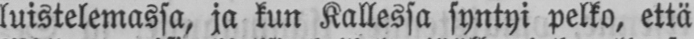luistelemassa, ja kun Kallessa syntyi pelko, että
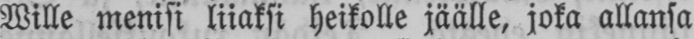Wille menisi liiaksi heikolle jäälle, joka ällänsä
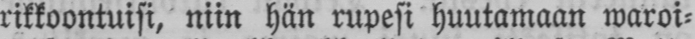rikkoontuisi, niin hän rupesi huutamaan waroi-
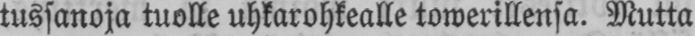tussanoja tuolle uhkarohkealle towerillensa. Mutta
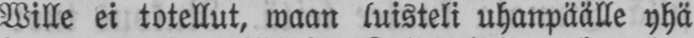Wille ei totellut, waan luisteli uhanpäälle yhä
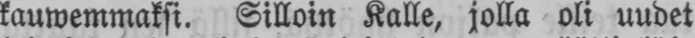kauwemmaksi. Silloin Kalle, jolla oli uudet
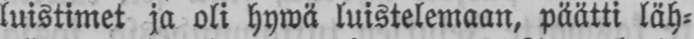luistimet ja oli hywä luistelemaan, päätti läh-
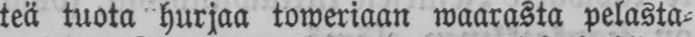teä tuota hurjaa toweriaan waarasta pelasta-
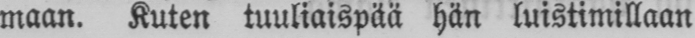maan. Kuten tuuliaispää hän luistimillaan
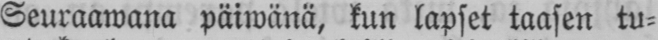Seuraawana päiwänä, kun lapset taasen tu-
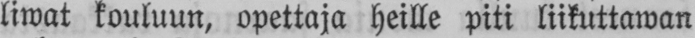liwat kouluun, opettaja heille piti liikuttawan
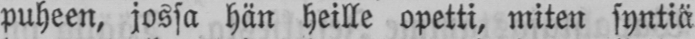puheen, jossa hän heille opetti, miten syntiä
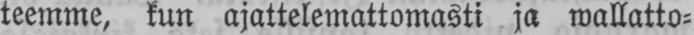teemme, kun ajattelemattomasti ja wallatto-
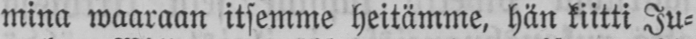mina waaraan itsemme heitämme, hän kiitti Ju-
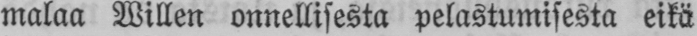malaa Willen onnellisesta pelastumisesta eikä
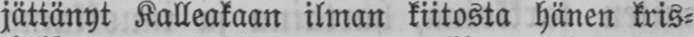jättänyt Kalleakaan ilman kiitosta hänen kris-
